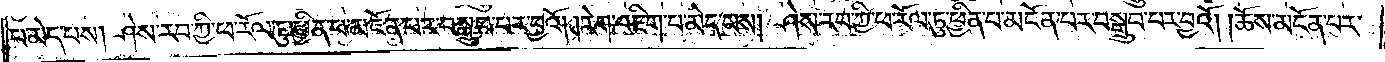པ་མེད་པས། ཤེས་རབ་ཀྱི་ཕ་རོལ་ཏུ་ཕྱིན་པ་མངོན་པར་བསྒྲུབ་པར་བྱའོ། །རེག་འཇིག་པ་མེད་པས། ཤེས་རབ་ཀྱི་ཕ་རོལ་ཏུ་ཕྱིན་པ་མངོན་པར་བསྒྲུབ་པར་བྱའོ། །ཆོས་མངོན་པར་
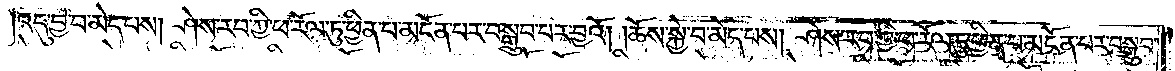འདུ་བྱ་བ་མེད་པས། ཤེས་རབ་ཀྱི་ཕ་རོལ་ཏུ་ཕྱིན་པ་མངོན་པར་བསྒྲུབ་པར་བྱའོ། །ཆོས་སྐྱེ་བ་མེད་པས། ཤེས་རབ་ཀྱི་ཕ་རོལ་ཏུ་ཕྱིན་པ་མངོན་པར་བསྒྲུབ་
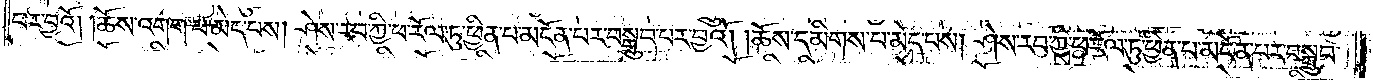པར་བྱའོ། །ཆོས་འགག་པ་མེད་པས། ཤེས་རབ་ཀྱི་ཕ་རོལ་ཏུ་ཕྱིན་པ་མངོན་པར་བསྒྲུབ་པར་བྱའོ། །ཆོས་དམིགས་པ་མེད་པས། ཤེས་རབ་ཀྱི་ཕ་རོལ་ཏུ་ཕྱིན་པ་མངོན་པར་བསྒྲུབ་
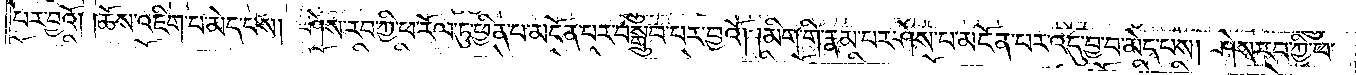པར་བྱའོ། །ཆོས་འཇིག་པ་མེད་པས། ཤེས་རབ་ཀྱི་ཕ་རོལ་ཏུ་ཕྱིན་པ་མངོན་པར་བསྒྲུབ་པར་བྱའོ། །མིག་གི་རྣམ་པར་ཤེས་པ་མངོན་པར་འདུ་བྱ་བ་མེད་པས། ཤེས་རབ་ཀྱི་ཕ་
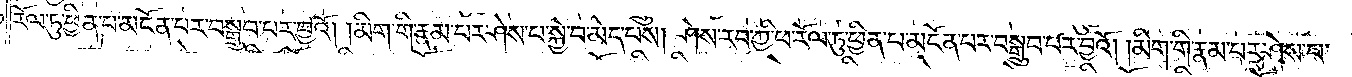རོལ་ཏུ་ཕྱིན་པ་མངོན་པར་བསྒྲུབ་པར་བྱའོ། །མིག་གི་རྣམ་པར་ཤེས་པ་སྐྱེ་བ་མེད་པས། ཤེས་རབ་ཀྱི་ཕ་རོལ་ཏུ་ཕྱིན་པ་མངོན་པར་བསྒྲུབ་པར་བྱའོ། །མིག་གི་རྣམ་པར་ཤེས་པ་
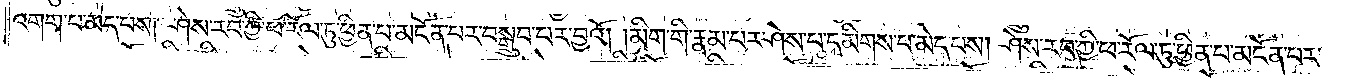འགག་པ་མེད་པས། ཤེས་རབ་ཀྱི་ཕ་རོལ་ཏུ་ཕྱིན་པ་མངོན་པར་བསྒྲུབ་པར་བྱའོ། །མིག་གི་རྣམ་པར་ཤེས་པ་དམིགས་པ་མེད་པས། ཤེས་རབ་ཀྱི་ཕ་རོལ་ཏུ་ཕྱིན་པ་མངོན་པར་
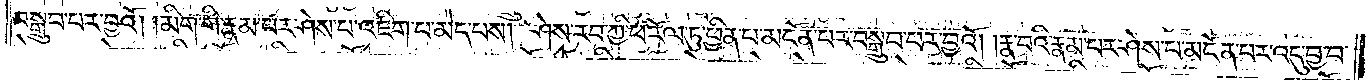བསྒྲུབ་པར་བྱའོ། །མིག་གི་རྣམ་པར་ཤེས་པ་འཇིག་པ་མེད་པས། ཤེས་རབ་ཀྱི་ཕ་རོལ་ཏུ་ཕྱིན་པ་མངོན་པར་བསྒྲུབ་པར་བྱའོ། །རྣ་བའི་རྣམ་པར་ཤེས་པ་མངོན་པར་འདུ་བྱ་བ་
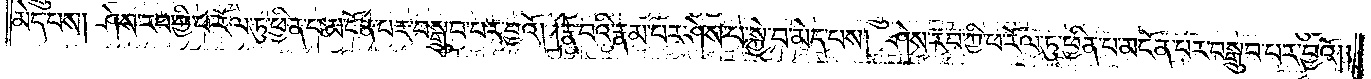མེད་པས། ཤེས་རབ་ཀྱི་ཕ་རོལ་ཏུ་ཕྱིན་པ་མངོན་པར་བསྒྲུབ་པར་བྱའོ། །རྣ་བའི་རྣམ་པར་ཤེས་པ་སྐྱེ་བ་མེད་པས། ཤེས་རབ་ཀྱི་ཕ་རོལ་ཏུ་ཕྱིན་པ་མངོན་པར་བསྒྲུབ་པར་བྱའོ། །
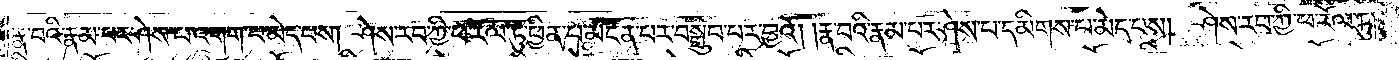རྣ་བའི་རྣམ་པར་ཤེས་པ་འགག་པ་མེད་པས། ཤེས་རབ་ཀྱི་ཕ་རོལ་ཏུ་ཕྱིན་པ་མངོན་པར་བསྒྲུབ་པར་བྱའོ། །རྣ་བའི་རྣམ་པར་ཤེས་པ་དམིགས་པ་མེད་པས། ཤེས་རབ་ཀྱི་ཕ་རོལ་ཏུ་
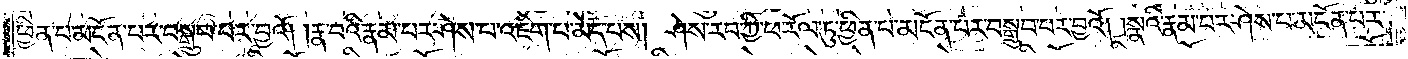ཕྱིན་པ་མངོན་པར་བསྒྲུབ་པར་བྱའོ། །རྣ་བའི་རྣམ་པར་ཤེས་པ་འཇིག་པ་མེད་པས། ཤེས་རབ་ཀྱི་ཕ་རོལ་ཏུ་ཕྱིན་པ་མངོན་པར་བསྒྲུབ་པར་བྱའོ། །སྣའི་རྣམ་པར་ཤེས་པ་མངོན་པར་
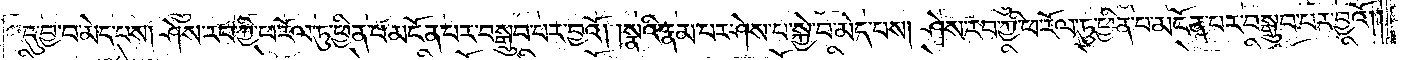འདུ་བྱ་བ་མེད་པས། ཤེས་རབ་ཀྱི་ཕ་རོལ་ཏུ་ཕྱིན་པ་མངོན་པར་བསྒྲུབ་པར་བྱའོ། །སྣའི་རྣམ་པར་ཤེས་པ་སྐྱེ་བ་མེད་པས། ཤེས་རབ་ཀྱི་ཕ་རོལ་ཏུ་ཕྱིན་པ་མངོན་པར་བསྒྲུབ་པར་བྱའོ། །
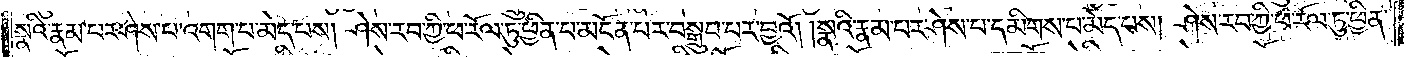སྣའི་རྣམ་པར་ཤེས་པ་འགག་པ་མེད་པས། ཤེས་རབ་ཀྱི་ཕ་རོལ་ཏུ་ཕྱིན་པ་མངོན་པར་བསྒྲུབ་པར་བྱའོ། །སྣའི་རྣམ་པར་ཤེས་པ་དམིགས་པ་མེད་པས། ཤེས་རབ་ཀྱི་ཕ་རོལ་ཏུ་ཕྱིན་
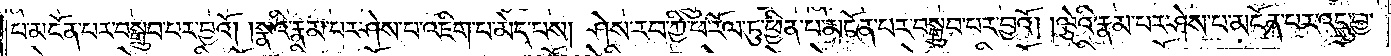པ་མངོན་པར་བསྒྲུབ་པར་བྱའོ། །སྣའི་རྣམ་པར་ཤེས་པ་འཇིག་པ་མེད་པས། ཤེས་རབ་ཀྱི་ཕ་རོལ་ཏུ་ཕྱིན་པ་མངོན་པར་བསྒྲུབ་པར་བྱའོ། །ལྕེའི་རྣམ་པར་ཤེས་པ་མངོན་པར་འདུ་བྱ་
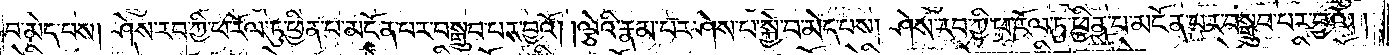བ་མེད་པས། ཤེས་རབ་ཀྱི་ཕ་རོལ་ཏུ་ཕྱིན་པ་མངོན་པར་བསྒྲུབ་པར་བྱའོ། །ལྕེའི་རྣམ་པར་ཤེས་པ་སྐྱེ་བ་མེད་པས། ཤེས་རབ་ཀྱི་ཕ་རོལ་ཏུ་ཕྱིན་པ་མངོན་པར་བསྒྲུབ་པར་བྱའོ། །
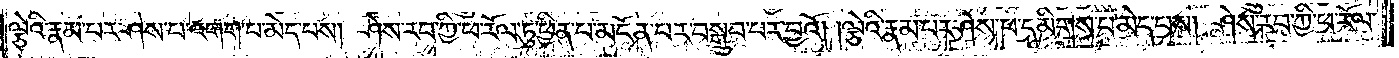ལྕེའི་རྣམ་པར་ཤེས་པ་འགག་པ་མེད་པས། ཤེས་རབ་ཀྱི་ཕ་རོལ་ཏུ་ཕྱིན་པ་མངོན་པར་བསྒྲུབ་པར་བྱའོ། །ལྕེའི་རྣམ་པར་ཤེས་པ་དམིགས་པ་མེད་པས། ཤེས་རབ་ཀྱི་ཕ་རོལ་
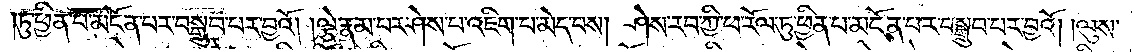ཏུ་ཕྱིན་པ་མངོན་པར་བསྒྲུབ་པར་བྱའོ། །ལྕེའི་རྣམ་པར་ཤེས་པ་འཇིག་པ་མེད་པས། ཤེས་རབ་ཀྱི་ཕ་རོལ་ཏུ་ཕྱིན་པ་མངོན་པར་བསྒྲུབ་པར་བྱའོ། །ལུས་
